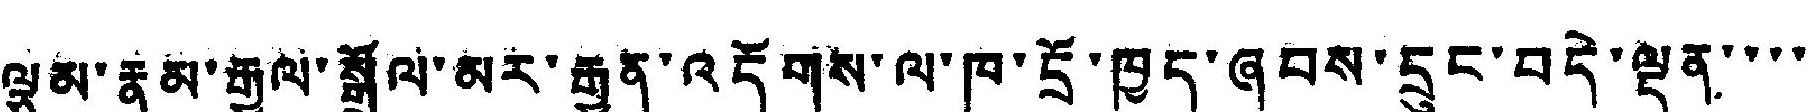ལྕམ་རྣམ་རྒྱལ་སྒྲོལ་མར་རྒྱན་འདོགས་ལ་ཁ་དྲོ་ཁྱད་ཞབས་དྲུང་བདེ་ལྡན་་་་
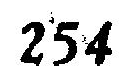254
